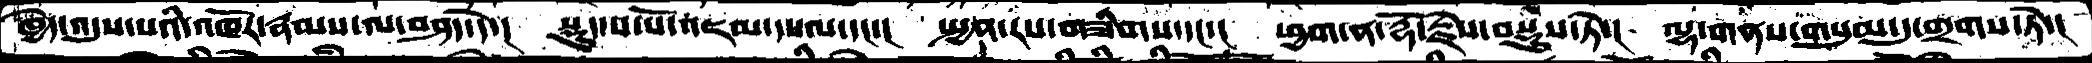ཁྱེད་འདུས་པའི་འཁོར་རྣམས་ལ་བཤད་དེ་།  སྡུད་པ་པོ་འཇམ་དཔལ་དང་་།  སྤྱན་རས་གཟིགས་དང་་།  ཕྱག་ན་རྡོ་རྗེས་བསྡུས་ཏེ་།  ལྷ་གནས་གསུམ་དུ་གྲགས་ཏེ་།
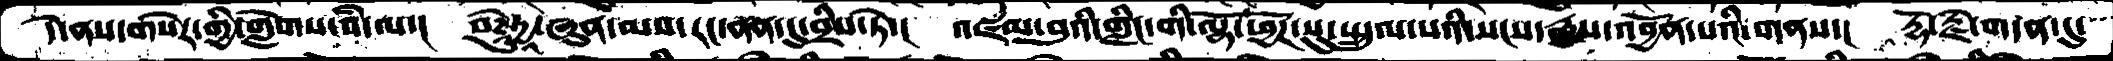དེ་ནས་གསེར་གྱི་གླེགས་བཾ་ལ་།  བེཌཱུརྱཱ་ཞུན་མས་རང་ནན་དུ་བྲིས་ཏེ་།  འཛམ་བུའི་གླིང་གི་ལྷོ་ཕྱོཌ་སུ་སྤྲུལ་པའི་སངས་རྒྱས་འབྱོན་པའི་གནས་།  རྡོ་རྗེ་གདན་དུ་
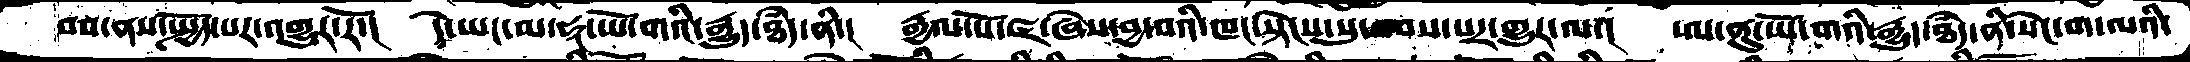བབ་ནས་སྤྱོད་པར་འགྱུར་རོ་།  དེ་ཡང་མ་ཧཱ་ཡོ་གའི་རྒྱུད་ཐཾད་ནི་།  རྒྱལ་པོ་ཛ་ཞེས་བྱ་བའི་ཁང་སྟེངས་སུ་བབས་པར་གྱུར་ལ་།  ཨ་ནུ་གོ་གའི་རྒྱུད་ཐཾད་ནི་སེང་ག་ལའི་
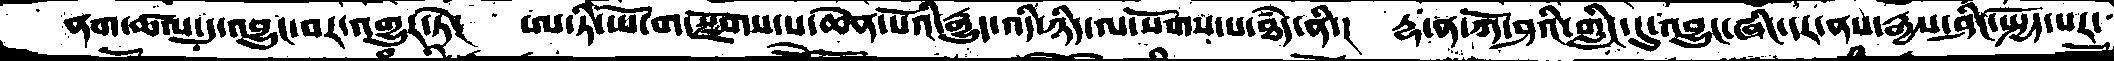ནག་ཚལ་དུ་འབྱུང་བར་འགྱུར་ཏེ།  ཨ་ཏི་ཡོ་ག་སྫོགས་པ་ཆེན་པོའི་རྒྱུད་འདི་ཉིད་ལ་སོགས་པ་ཐཾད་ནི་།  རྡ་ན་ཀོ་ཤའི་གླིང་དུ་འབྱུང་ཞིང་དར་ནས་རྒྱས་ཤིང་སྤྱོད་པར་
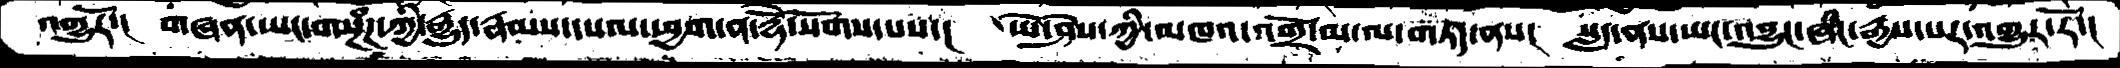འགྱུརོ་།  གཞན་ཡང་གསྔཾཌ་ཀྱི་རྒྱུད་རྣམས་དཔལ་ཕྱག་ན་རྡོེ་སོགས་པས་།  ཡེ་ཤེས་ཀྱི་མཁའ་འགྲོ་མ་ལ་གཏད་ནས་།  སླད་ནས་ཡང་འབྱུང་ཞིང་རྒྱས་པར་འགྱུར་རོ་།
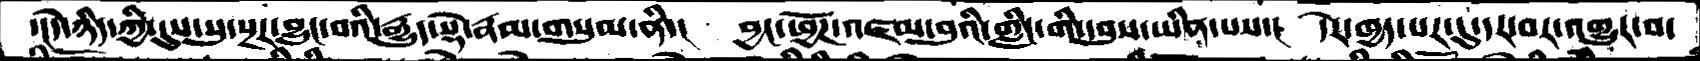་།དེ་ཉིད་ཀྱི་དུས་སུ་སྔར་བྱུང་བའི་རྒྱུད་སྡེ་རྣམ་གསུམ་ནི་།  བྱང་ཕྱོཌ་འཛམ་་བུའི་གླིང་གི་དབུས་ཡིན་པས་།  དེར་ཁྱད་པར་དུ་དར་བར་འགྱུར་བ་
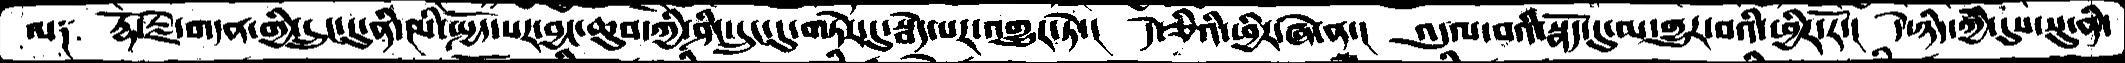ལ༑  རྡོ་རྗེ་གདན་གྱི་དྲུང་དུ་ནི་མི་སྤྱོད་པར་བྱང་ཆུབ་ཀྱི་ཤིང་དྲུང་དུ་གཏེར་དུ་སྦེད་པར་འགྱུར་ཏེ་།  དེ་ཅིའི་ཕྱིར་ཞེ་ན་།  འདུལ་བའི་སྣོད་དུ་མ་གྱུར་བའི་ཕྱིར་རོ་།  དེ་ཉིད་ཀྱི་དུས་སུ་ནི་
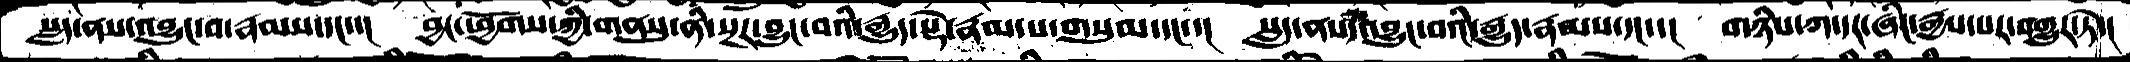སླད་ནས་འབྱུང་བ་རྣམས་དང་་།  བྱང་ཕྱོགས་ཀྱི་གནསུ་ནི་སྔར་བྱུང་བའི་རྒྱུད་སྡེ་རྣམ་པ་གསུམ་དང་་།  སླད་ནས་འབྱུང་བའི་རྒྱུད་རྣམས་དང་་།  གཉིས་ཀ་དར་ཞིང་རྒྱས་པར་འགྱུར་ཏེ་།
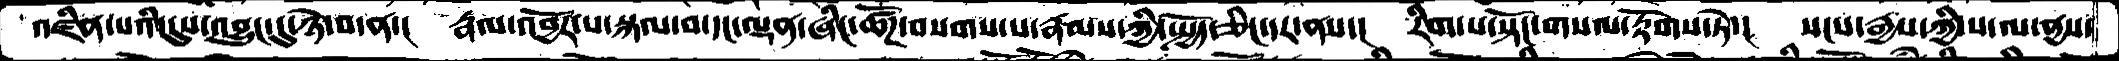འཛིན་པའི་དུས་འབྱུང་དུ་ཉེ་བ་ན་།   རྣལ་འབྱོར་པ་སྐལ་བ་དང་ལྡན་ཞིང་ཚོཌ་བསགས་པ་རྣམས་ཀྱི་སྤྱོད་ཅིང་དར་ནས་།   རིག་པ་སྟོང་གསལ་རྟོགས་ཏེ་།  སངས་རྒྱས་ཀྱི་ས་ལ་ནྱས་
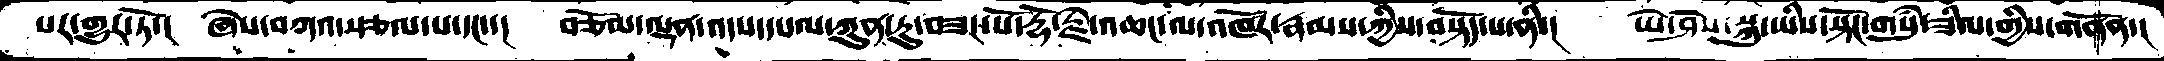པར་གྱུར་ཏོ་།   ཞེས་བཀའ་སྩལ་པ་དང་་།   བཅོམ་ལྡན་འདས་དཔལ་ཀུན་ཏུ་བཟང་པོ་རྡོ་རྗེ་འཆང་ལ་འཁོོར་རྣམས་ཀྱིས་བསྟོད་པ་ནི་།     ཡེ་ཤེས་སྐུ་ཡིས་སྟོང་གསུཾ་ཟིལ་གྱིས་གནོན་།
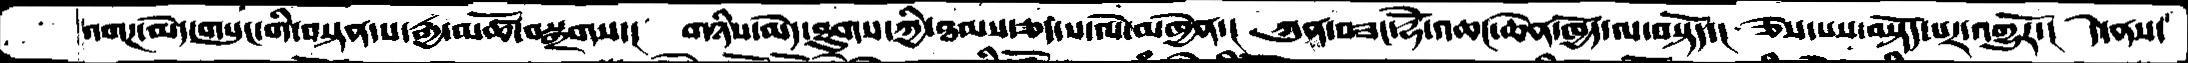འགཌ་མེད་གསུང་གི་བསྟན་པ་རྒྱ་མཚོ་བསྒྲགས་།   གཉིས་མེད་ཐུགས་ཀྱི་ཐམས་ཅད་ས་ལེ་མཁྱེན་།   ཀུན་བཟང་རྡོེ་འཆང་ཆེན་ཁྱོད་ལ་བསྟོད་།  ཅེས་པས་བསྟོད་པར་འགྱུརོ་།  དེ་ནས་
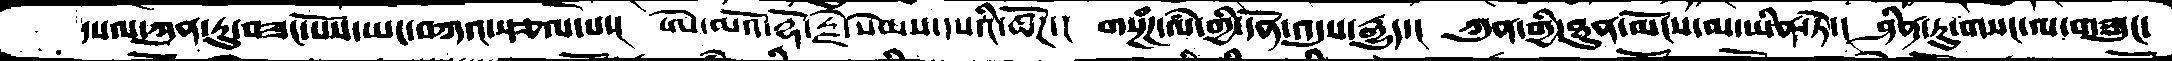དཔལ་ཀུན་ཏུ་བཟང་པོས་ཡང་བཀའ་སྩལ་པས་།   ཨེ་མའོ་རྡོ་རྗེ་སེམས་དཔའི་ཚོཌ་།  གསྔཾཌ་ལཾ་གྱི་དོན་འདུས་རྒྱུད་།  ཀུན་གྱི་ཐུན་མོངས་མ་ཡིན་ཏེ་།  ཤིན་ཏུ་གསང་ལ་གཟུང་
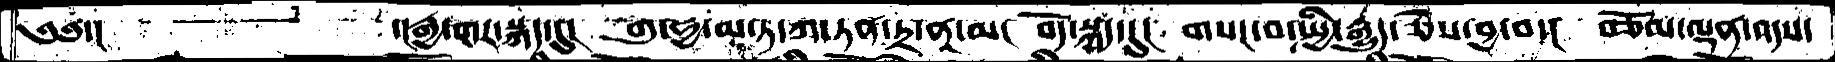༄༅་།          ་།རྒྱ་གར་སྐད་དུ།  གུ་ཧྱ་མ་ཏ་ཀ་ཏན་ཏྲ་ནཱ་མ།  བོད་སྐད་དུ།  གསང་བ་སྤྱི་རྒྱུད་ཅེས་བྱ་བ་།  བཅོམ་ལྡན་འདས་
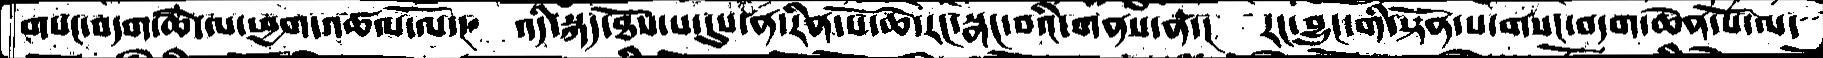གསང་བདག་ཆེ་ལ་ཕྱག་འཚལ་ལོ་།  འདི་སྐད་ཐོས་པ་དུས་ན་རིན་པོ་ཆེ་རང་སྣང་བའི་གནས་ན་།  རང་བྱུང་གི་སྟོན་པ་གསང་བདག་ཆེན་པོ་ལ་
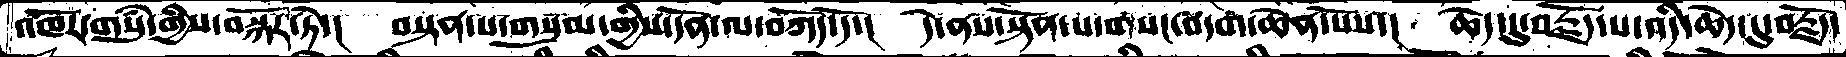འཁོར་གསུཾ་གྱིས་བསྐོར་ཏེ་།  བསྟན་པ་གསུམ་གྱིས་དོན་ལ་བཀོད་དོ་།    དེ་ནས་སྟོན་པ་གསང་བདག་ཆེན་པོས་།  ཆེད་དུ་བརྗོད་པ་འདི་ཆེད་དུ་བརྗོད་
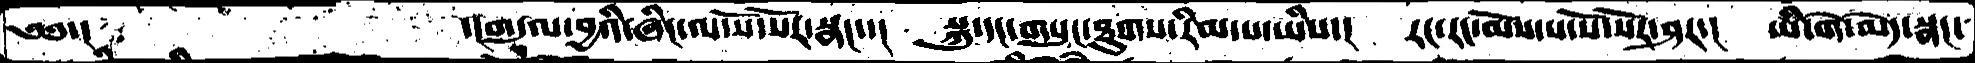༄༅་།             ་།གདུལ་བྱའི་ཞིང་ལ་སོ་སོར་སྣང་་།   སྐུ་དང་གསུང་ཐུགས་རིམ་པ་ཡིས་།  རང་རང་མོས་པ་སོ་སོར་ཤར་།  ཡི་གེ་མེད་སྣང་
